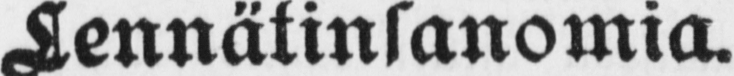Lennätinsanomia.
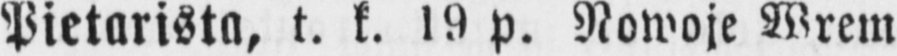Pietarista, t. k. l9 p. Nowoje Wrem-
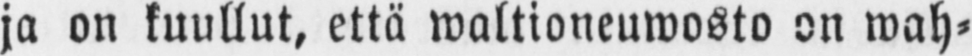ja on kuullut, että waltioneuwosto on wah-
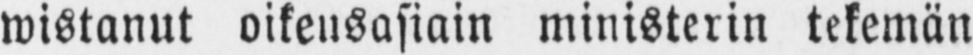wistanut oikeusasiain ministerin tekemän
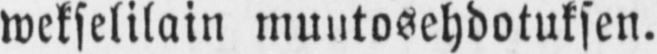wekselilain muutosehdotuksen.
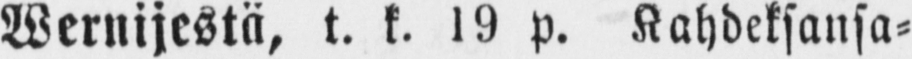Wernijestä, t. k. l9 p. Kahdeksansa-
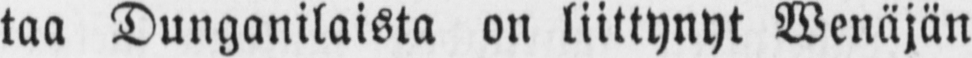taa Dunganilaista on liittynyt Wenäjän
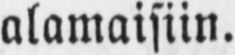alamaisiin.
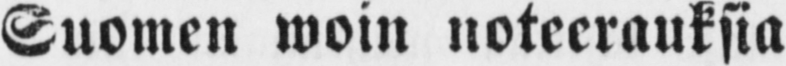Suomen woin noteerauksia
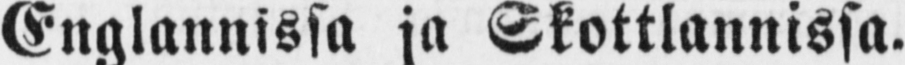Englannissa ja Skottlannissa.
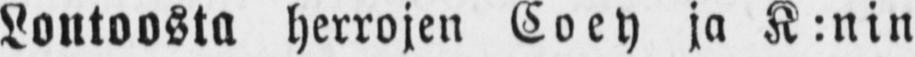Lontoosta herrojen Coey ja K:nin
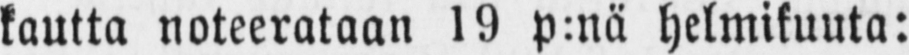kautta noteerataan 19 p:nä helmikuuta:
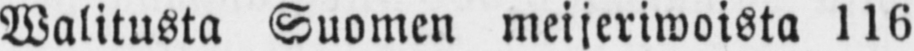Walitusta Suomen meijeriwoista 116
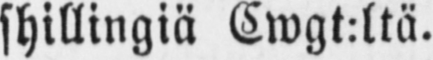shillingiä Cwgt:ltä.
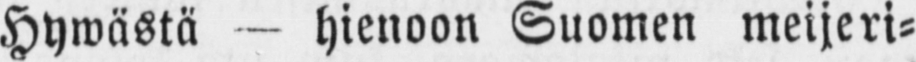Hywästä - hienoon Suomen meijeri-
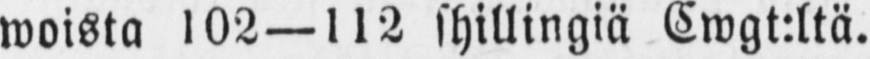woista 102—112 shillingin Cwgt:ltä.
